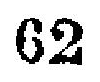62
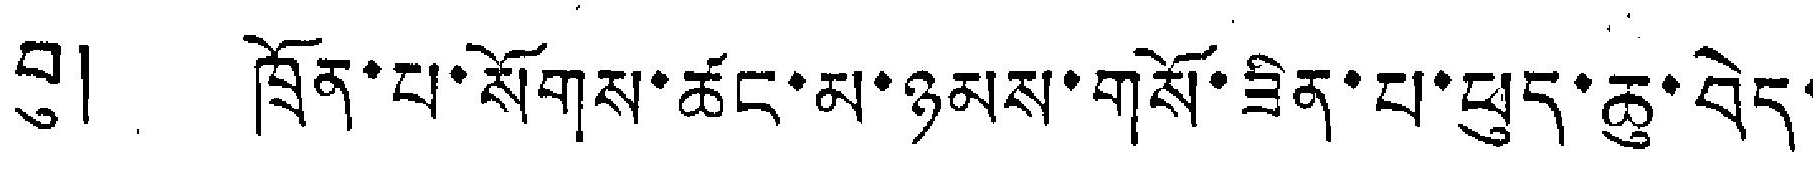བུ། ཁྲོན་པ་སོགས་ཚང་མ་ཉམས་གསོ་ཟིན་པ་ཕུད་ཆུ་བེད་
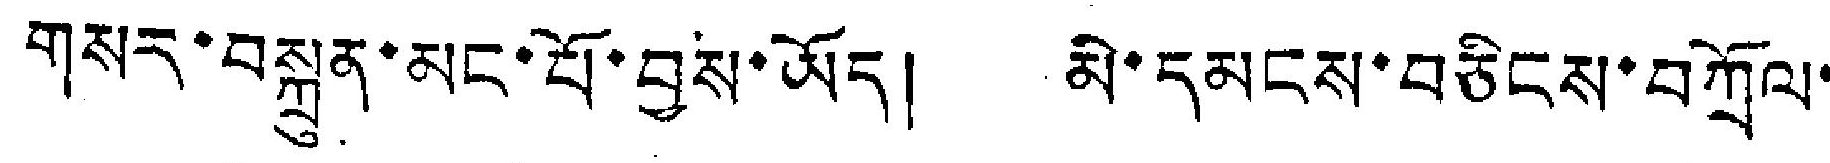གསར་བསྐྲུན་མང་པོ་བྱས་ཡོད། མི་དམངས་བཅིངས་བཀྲོལ་
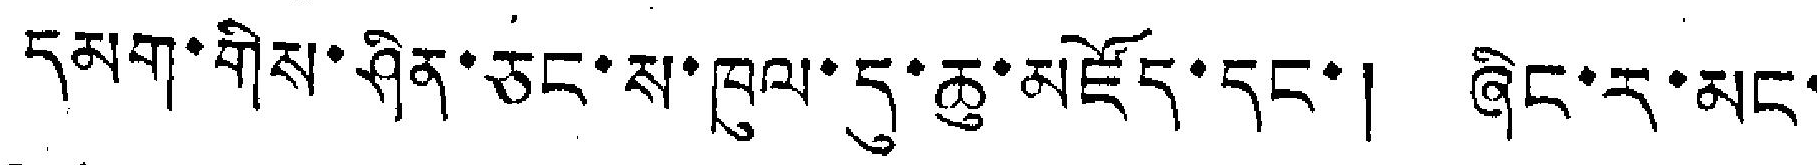དམག་གིས་ཤིན་ཅང་ས་ཁུལ་དུ་ཆུ་མཛོད་དང་། ཞིང་ར་མང་
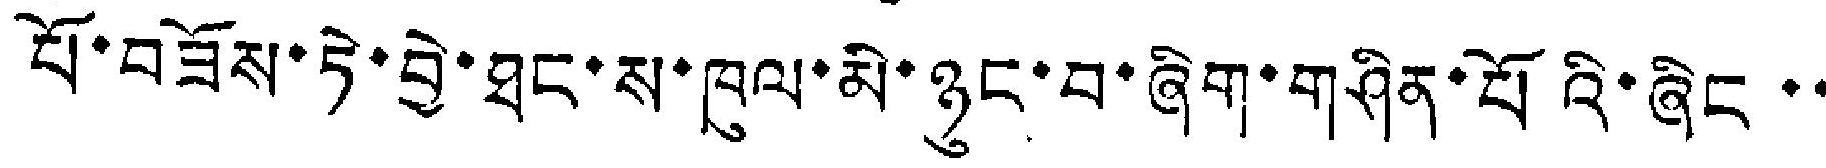པོ་བཟོས་ཏེ་བྱེ་ཐང་ས་ཁུལ་མི་ཉུང་བ་ཞིག་གཤིན་པོའི་ཞིང་་
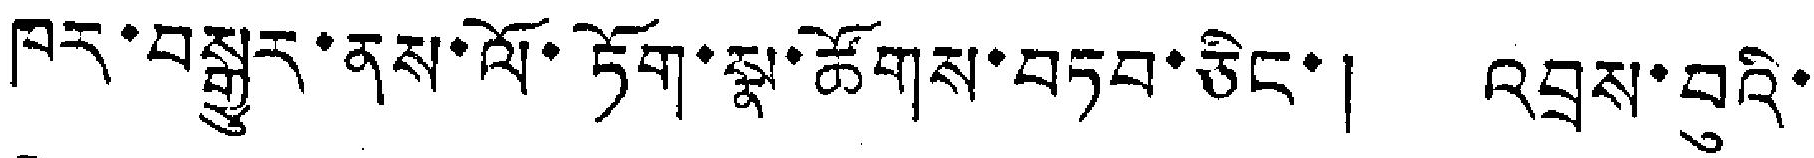ཁར་བསྒྱུར་ནས་ལོ་ཏོག་སྣ་ཚོགས་བཏབ་ཅིང་། འབྲས་བུའི་
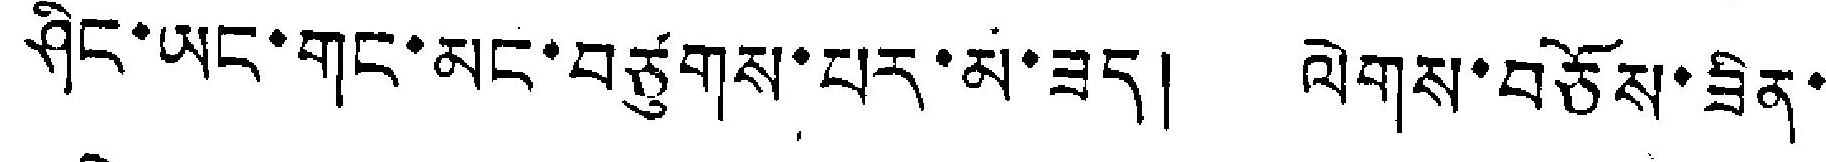ཤིང་ཡང་གང་མང་བཙུགས་པར་མ་ཟད། ལེགས་བཅོས་ཟིན་
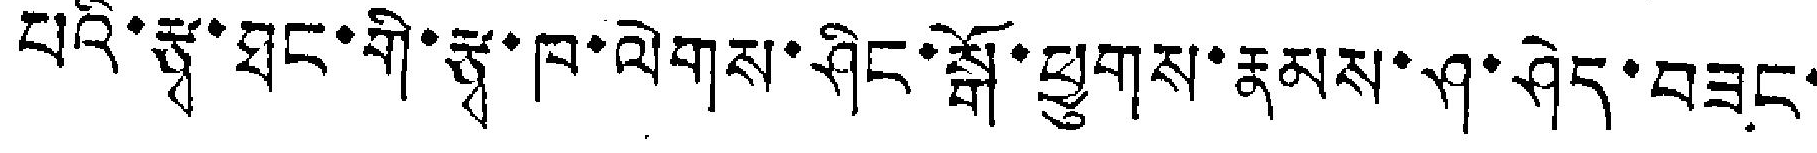པའི་རྩྭ་ཐང་གི་རྩྭ་ཁ་ལེགས་ཤིང་སྒོ་ཕྱུགས་རྣམས་ཤ་ཤེད་བཟང་
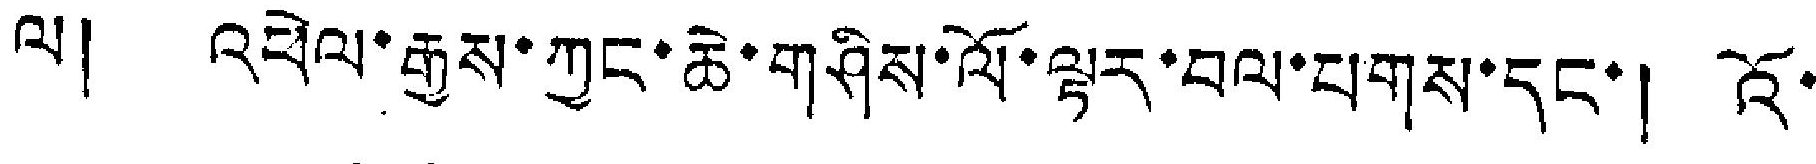ལ། འཕེལ་རྒྱས་ཀྱང་ཆེ་གཤིས་ལོ་ལྟར་བལ་པགས་དང་། འོ་
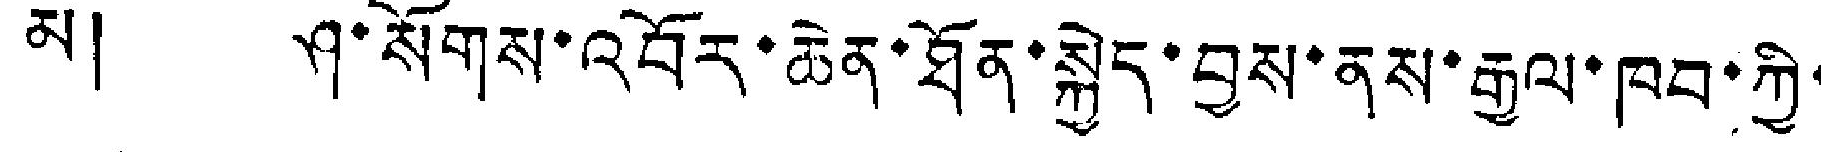མ། ཤ་སོགས་འབོར་ཆེན་ཐོན་སྐྱེད་བྱས་ནས་རྒྱལ་ཁབ་ཀྱི་
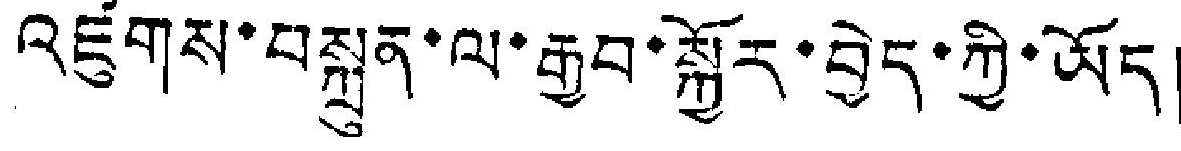འཛུགས་བསྐྲུན་ལ་རྒྱབ་སྐྱོར་བྱེད་ཀྱི་ཡོད།
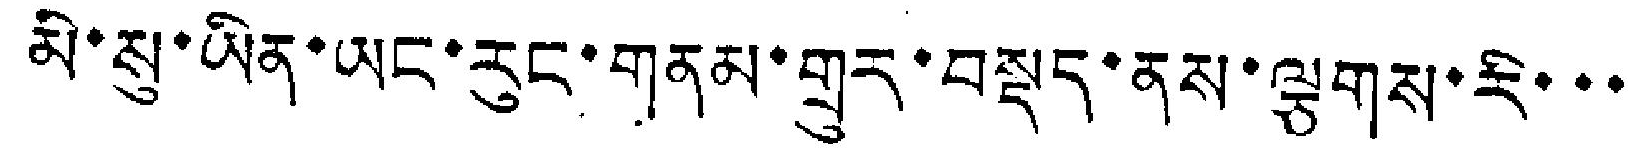མི་སུ་ཡིན་ཡང་རུང་གནམ་གྲུར་བསྡད་ནས་ལྕགས་རི་་་
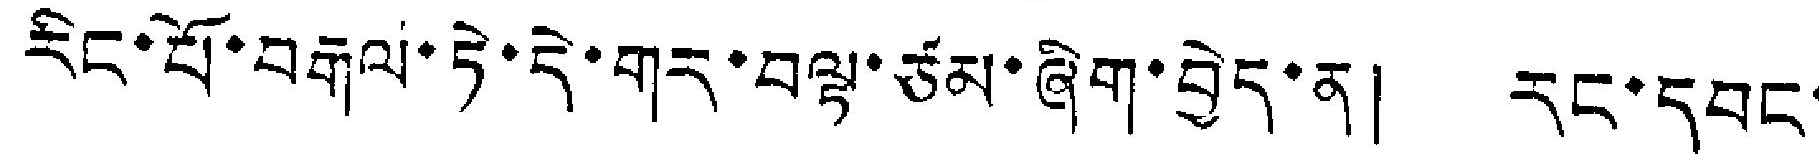རིང་པོ་བརྒལ་ཏེ་དེ་གར་བལྟ་ཙམ་ཞིག་བྱེད་ན། རང་དབང་
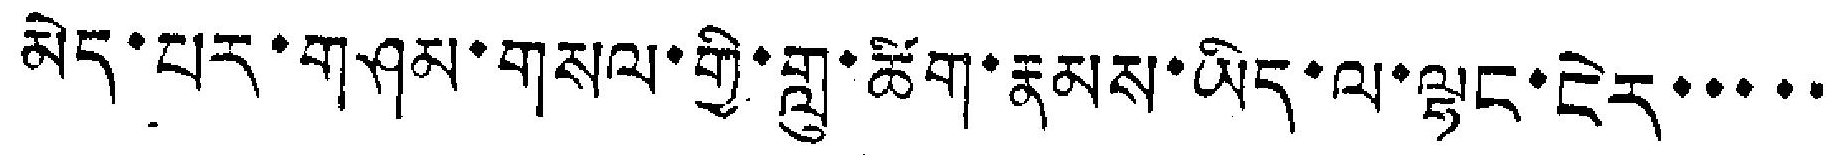མེད་པར་གཤམ་གསལ་གྱི་གླུ་ཚིག་རྣམས་ཡིད་ལ་ལྷང་ངེར་་་་་་
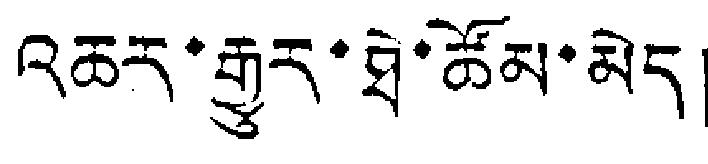འཆར་རྒྱུར་ཐེ་ཚོམ་མེད།
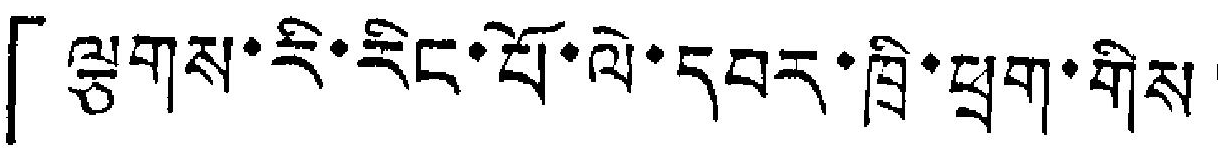「ལྕགས་རི་རིང་པོ་ལེ་དབར་ཁྲི་ཕྲག་གིས།
